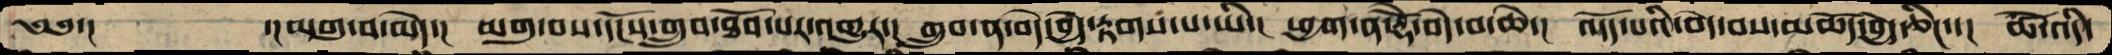༄༅་།             ་།མགུ་བ་མེད་།  མགུ་བས་དངོས་གྲུབ་ཐོབ་པར་འགྱུར་།  གྲུབ་ན་བདེ་བྱེད་རྟགས་པ་ཡི་།  ཕྱག་ན་རྡོེ་བདེ་བ་ཆེ་།  འདོད་པའི་བདེ་བས་མཆོད་བྱེད་ཅིང་་།  ཚེ་འདི་
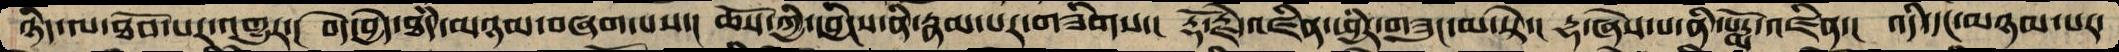ཉིད་ལ་ཐོབ་པར་འགྱུར་།  བདེ་བྱེད་ཐདཾ་མཉམ་བཞག་པས་།  ཆོས་ཀྱི་དབྱིངས་ནི་རྣམ་པར་གཟིགས་།  རྡོ་རྗེ་འཛིན་ཕྱིར་གཟུང་མ་སྟེ་།  དྷ་ཞེས་པ་ནི་པདྨོ་འཛིན་།  འདི་དང་མཉམ་པར་
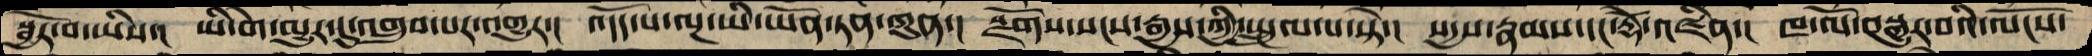སྦྱོར་བ་ཡིས་།  ཡི་གེ་མྱུར་དུ་འགྲུབ་པར་འགྱུར་།  འདོད་པ་ལྔ་ཡི་ཡོན་ཏན་ཀུན་།  སྫོགས་སངས་རྒྱས་ཀྱི་སྤྲུལ་པ་སྟེ་།  སདྱས་རྣམས་དང་རྡོེ་འཛིན་།  ཁ་ལོ་བསྒྱུར་བའི་ལོངས་
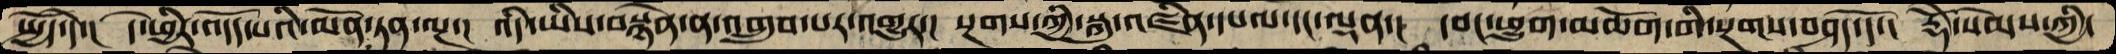སྤྱོད་དེ་།  དེ་ཕྱིར་འདོད་པའི་ཡོན་ཏན་ལྔ་། འདི་ཡིས་བསྙེན་ན་འགྲུབ་པར་འགྱུར་།  སྔགས་ཀྱི་སྐུ་འཛིན་དཔལ་དང་ལྡན་།  དབང་ཕྱུག་མཆོག་གི་སྔགས་བཤད་དོ་།  རྡོེ་སེམས་ཀྱི་
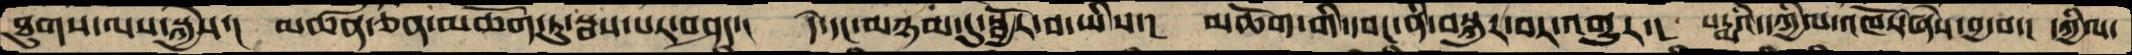ཐུགས་ལས་སྐྱེས་།  མཚན་ཅན་མཆོག་ཏུ་སྦས་པར་བཤད་།  དེ་དང་མཉམ་དུ་སྦྱོར་བ་ཡིས་།  མཆོག་གི་དབང་ནི་བསྐུར་བར་འགྱུར་།   པདྨའི་དཀྱིལ་འཁོར་ཞེས་བྱ་བ་།  དཀྱིལ་
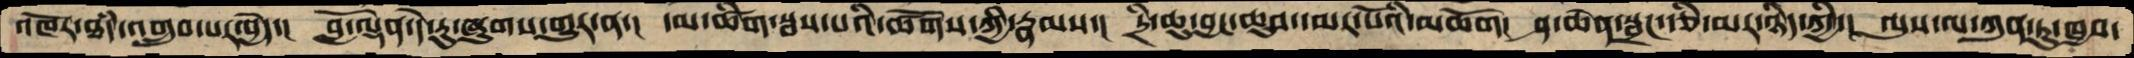འཁོར་ཐཾད་འགྲུབ་པར་བྱེད་།  བློ་ལྡན་དེ་རུ་ཞུགས་གྱུར་ན་།  དམ་ཚིག་སྦས་པའི་ཚོགས་ཀྱི་རྣམས་།  དྲི་ཆུ་བྱང་ཆུབ་དམར་པོའི་མཆོག་།  ཤ་ཆེེན་སྦྲང་རྩི་མར་ཉིད་ཀྱི་།  ལུས་ལ་ཀུན་ཏུ་ཁྱབ་
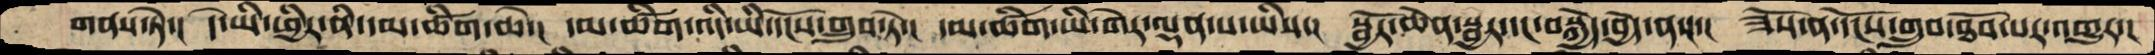གནས་ཏེ་།  དེ་ཡི་ཕྱིར་ནི་དམ་ཚིག་ཆེ་།  དམ་ཚིག་འདི་ཡི་དངོས་གྲུབ་ཏེ་།  དམ་ཚིག་ཡི་གེར་ལྡན་པ་ཡིས་།  སྦྱོར་ཆེན་སྦྱར་དང་བསྐྱེད་བྱེད་ན་།  ཟོས་ན་དངོས་གྲུབ་ཐོབ་པར་འགྱུར་།
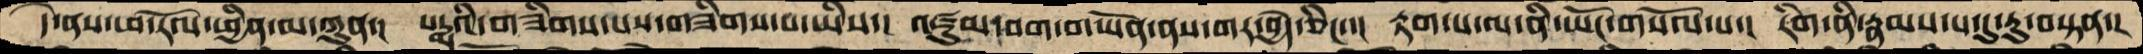དེ་ནས་ཕ་རོལ་ཕྱིན་མ་ཀུན་།  པདྨའི་གཟིགས་པས་གཟིགས་པ་ཡིས་།  འཛུམ་བག་གཡོན་ནས་གར་བྱེད་ཅིང་་།  རྟག་པ་ལ་ནི་ཡོང་གསོལ་པ་།  རིག་ནི་རྣམས་པ་དུ་རུ་བསྟན་།
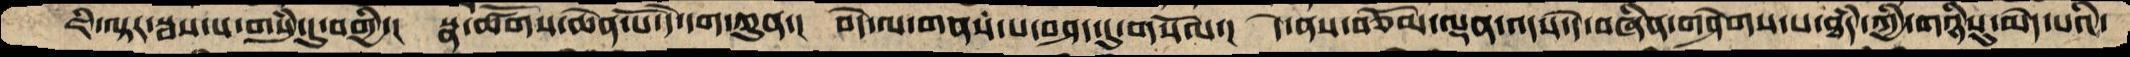ཇི་ལྟར་སྦས་པ་གསུཾ་དུ་བགྱི་།  སྣ་ཚོགས་ཆེན་པོ་དེ་དག་ཀུན་།  བདེ་ལ་གནས་པ་བཤད་དུ་གསོལ་།  དེ་ནས་བཅོམ་ལྡན་འདས་དེ་བཞིན་གཤེགས་པ་ཐདཾ་ཀྱི་གཉིསུ་མེད་པའི་
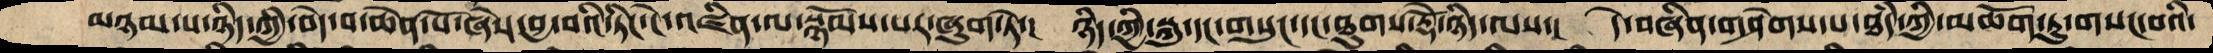མཉམ་པ་ཉིད་ཀྱི་བདེ་བ་ཆེན་པོ་ཞེས་བྱ་བའི་ཏིང་ངེ་འཛིན་ལ་སྙོམས་པར་ཞུག་ཏེ་།  ཉིད་ཀྱི་སྐུ་དང་གསུང་དང་ཐུགས་རྡོེ་ཉིད་ལས་།  དེ་བཞིན་གཤེགས་པ་ཐདཾ་ཀྱི་མཆོག་ཏུ་གསང་བའི་
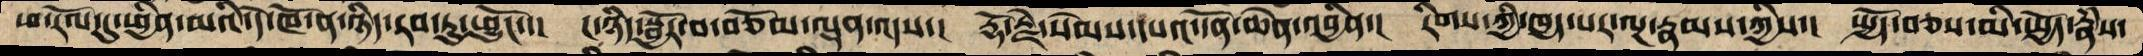ཕ་རོལ་དུ་ཕྱིན་མའི་དེ་ཁོ་ན་ཉིད་རབ་ཏུ་ཕྱུངོ་་།  ང་ཉིད་སྦྱོར་བ་བཅོམ་ལྡན་འདས་།  རྡོ་རྗེ་སེམས་དཔའ་དོན་ཆེན་འབྱིན་།  རིགས་ཀྱི་ཁྱད་པར་ལྔ་རྣམས་ཀྱིས་།  སྤྱོད་བཅས་མི་སྤྱོད་རྣཾས་
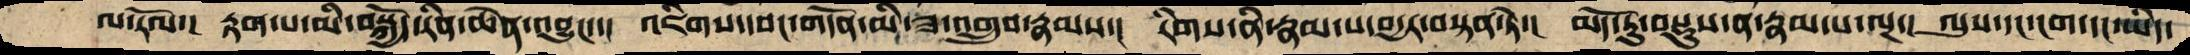ལ་རོལ་།  རྟག་པ་མི་བསྐྱོད་རིན་ཆེན་འབྱུང་་།  འཇིགས་དབང་གདོན་མི་ཟ་འགྲུབ་རྣམས་།  རིགས་ནི་རྣམ་པ་བདྱར་བསྟན་ཏེ་།  མདོ་རུ་བསྡུས་ན་རྣམ་པ་ལྔ་།  ལུས་དང་ངག་དང་ཡིད་
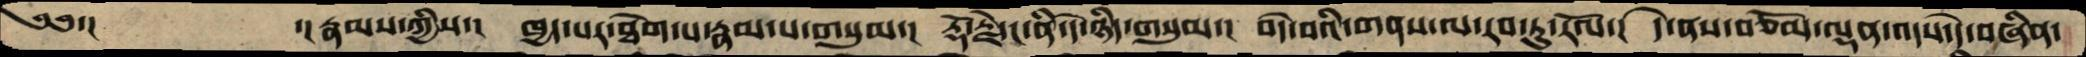༄༅་།     ་།རྣམས་ཀྱིས་།  ཁྱད་པར་ཐེག་པ་རྣམ་པ་གསུམ་།  རྡོ་རྗེ་ང་ནི་དེ་ཉིད་གསུམ་།  བདེ་བའི་གནས་ལ་རབ་ཏུ་རོལ་།  དེ་ནས་བཅོམ་ལྡན་འདས་དེ་བཞིན་
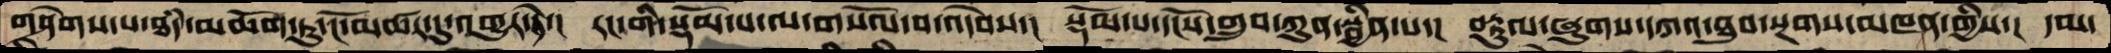གཤེགས་པ་ཐདཾ་མཆོག་ཏུ་ངོ་མཚར་དུ་འགྱུར་ཏེ་།  རང་གི་སྡོམ་པ་ལ་གསོལ་བ་འདེབས་།  སྡོམ་པ་དངོས་གྲུབ་ཀུན་སྦྱིན་པ་།  བརྟུལ་ཞུགས་དཀའ་ཐུབ་སྔགས་མཁན་གྱིས་།  དམ་
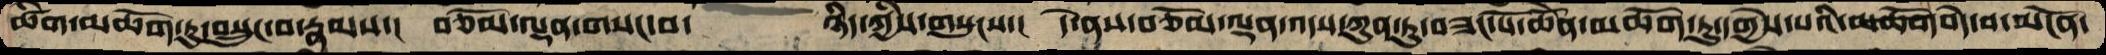ཚིག་མཆོག་ཏུ་བསྲུང་བ་རྣམས་།  བཅོམ་ལྡན་གསང་བ་    ཉིད་ཀྱིས་གསུངས་།  དེ་ནས་བཅོམ་ལྡན་འདས་ཀུན་ཏུ་བཟང་པོ་ཆེནོ་མཆོག་ཏུ་དགྱེས་པའི་མཆོག་བདེ་བ་མངོན་
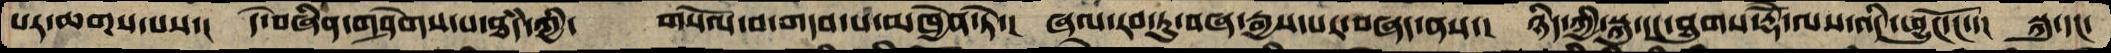པར་ཆགས་པས་།  དེ་བཞིན་གཤེགས་པ་ཐདཾ་ཀྱི་   གསོལ་བ་གདབ་པ་མཁྱེན་ཏེ་།  ཞལ་རབ་ཏུ་བཞ་རྒྱས་པར་བཞད་ནས་།  ཉིད་ཀྱི་སྐུ་དང་ཐུགས་རྡོེ་ལས་འདི་ཕྱུང་ངོ་་།  སྐུ་དང་
